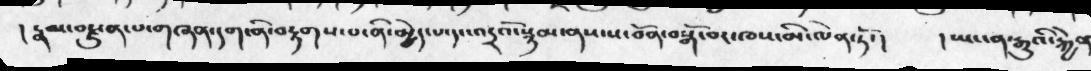།རྣམ་བརྫུན་པ་གཞན་དག་ནི་བརྟགས་པ་ནི་མྱེད་པ་དང་འདྲའོ་སྙམ་ནས་ས་བོན་བསྒོ་བར་ཁས་མི་ལེན་ཏོ་།   །ཡང་ན་རྒྱུའི་རྐྱེན
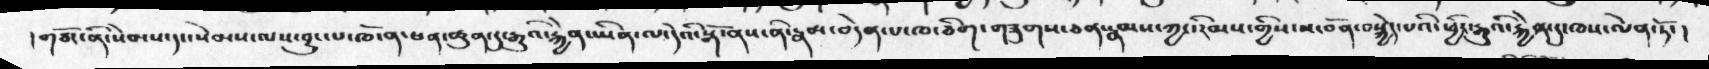།གཙོར་ནི་སེམས་དང་སེམས་ལས་བྱུང་པ་ཁོ་ན་ཕན་ཚུན་དུ་རྒྱུའི་རྐྱེན་ཡིན་ལ་དེའི་སྒོ་ནས་ནི་རྣམ་བདེན་པ་ཁ་ཅིག་གཟུགས་ཅན་རྣམས་ཀྱང་རིམས་གྱིས་ས་བོན་བསྐྱེད་པའི་ཕྱིར་རྒྱུའི་རྐྱེན་དུ་ཁས་ལེན་ཏོ་།
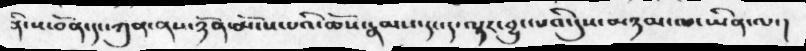ནི་ས་བོན་དང་ཀུན་ནས་ཉོན་མོངས་པའི་ཆོས་རྣམས་དང་ད་ལྟར་བྱུང་པའི་དུས་མཉམ་པ་ཡིན་ལ་།
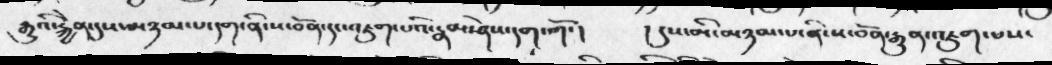རྒྱུའི་རྐྱེན་དུས་མཉམ་པ་དག་ནི་ས་བོན་དང་འཇུག་པའི་རྣམ་ཤེས་དག་གོ་།  །དུས་མི་མཉམ་པ་ནི་ས་བོན་རྒྱུན་འཇུག་པས་
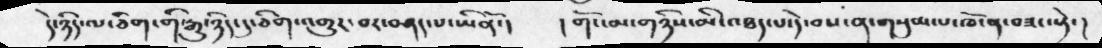དེ་ཉིད་ལ་ཅིག་གི་རྒྱུ་ཉིད་དུ་ཅིག་འགྱུར་བར་བཤད་པ་ཡིནོ་།   །གོང་མ་གཉིས་མི་འཐད་པ་དེ་བས་ན་གསུམ་པ་ཁོ་ན་བཟང་སྟེ་།
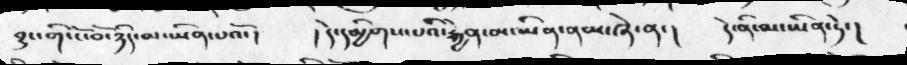བྱུང་གི་ངོ་བོ་ཉིད་མ་ཡིན་པའོ་།   །དེ་དམྱིགས་པའི་རྐྱེན་མ་ཡིན་ནམ་ཞེ་ན་།   དེ་ནི་མ་ཡིན་ཏེ་།
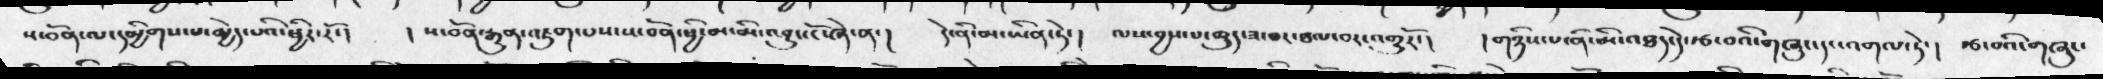ས་བོན་ལ་དམྱིགས་པ་མྱེད་པའི་ཕྱིར་རོ་།   ། ས་བོན་རྒྱུན་འཇུག་པས་ས་བོན་ཕྱི་མ་མི་འབྱུང་ངོ་ཞེ་ན་།   དེ་ནི་མ་ཡིན་ཏེ་།  ལས་བྱས་པ་ཆུད་ཟ་བར་ཐལ་བར་འགྱུརོ་།   །གཉིས་པ་ནི་མི་འཐད་དེ་རྩ་བའི་གཞུང་དང་འགལ་ཏེ་།  རྩ་བའི་གཞུང་
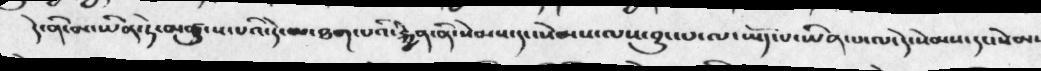དེ་ནི་མ་ཡིན་ཏེ་མཚུངས་པའི་དེ་མ་ཐག་པའི་རྐྱེན་ནི་སེམས་དང་སེམས་ལས་བྱུང་པ་ལ་ཡོད་པ་ཡིན་པ་ལ་དེ་སེམས་དང་སེམས
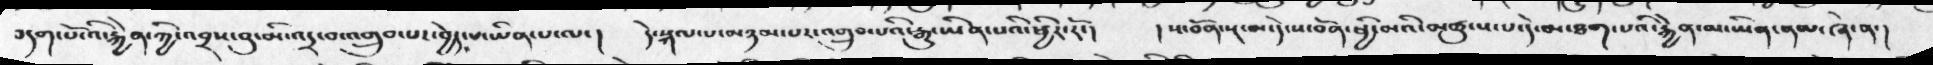བདག་པོ་འི་རྐྱེན་ཀྱི་འབྲས་བུ་མི་འདྲ་བ་འགྲུབ་པར་བྱེད་པ་ཡིན་པ་ལ་།   དེ་སྐལ་པ་མཉམ་པར་འགྲུབ་པའི་རྒྱུ་ཡིན་པའི་ཕྱིར་རོ་།  །ས་བོན་སྔ་མ་དེ་ས་བོན་ཕྱི་མའི་མཚུངས་པ་དེ་མ་ཐག་རྐྱེན་མ་ཡིན་ནམ་ཞེ་ན་།
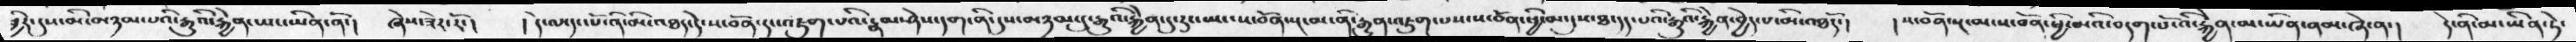ཕྱིར་དུས་མི་མཉམ་པའི་རྒྱུའི་རྐྱེན་ཡང་ཡིན་ནོ་།  ཞེས་ཟེར་རོ་།  །དེ་ལ་དང་པོ་ནི་མི་འཐད་དེ་ས་བོན་དུ་འཇུག་པའི་རྣམ་ཤེས་དག་ནི་དུས་མཉམ་དུ་རྒྱུའི་རྐྱེན་དུ་རུང་ཡང་ས་བོན་སྔ་མ་ནི་རྒྱུན་འཇུག་པས་ས་བོན་ཕྱི་མ་དུས་ཐ་དད་པའི་རྒྱུའི་རྐྱེན་བྱེད་པ་མི་འཐདོ་།   །ས་བོན་སྔ་མ་ས་བོན་ཕྱི་མའི་བདག་པོ་འི་རྐྱེན་མ་ཡིན་ནམ་ཞེ་ན་།   དེ་ནི་མ་ཡིན་ཏེ་
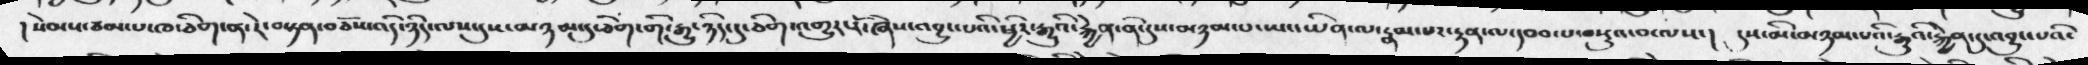།སེམས་ཙམ་པ་ཁ་ཅིག་ན་རེ་བསྟན་བཅོས་འདི་ཉིད་ལས་དུས་མཉམ་དུ་ཅིག་གི་རྒྱུ་ཉིད་དུ་ཅིག་འགྱུར་རོ་ཞེས་འབྱུང་པའི་ཕྱིར་རྒྱུའི་རྐྱེན་ནི་དུས་མཉམ་པ་ཡང་ཡིན་ལ་རྣམ་པར་རྟན་ལ་དབབ་པ་བསྡུའ་བ་ལས་།  དུས་མི་མཉམ་པའི་རྒྱུའི་རྐྱེན་དུ་འབྱུང་པའི་
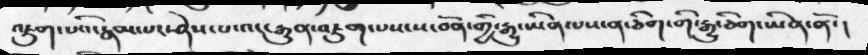འཇུག་པའི་རྣམ་པར་ཤེས་པ་འང་རྒྱུན་འཇུག་པས་ས་བོན་གྱི་རྒྱུ་ཡིན་པས་ན་ཅིག་གི་རྒྱུ་ཅིག་ཡིན་ནོ་།
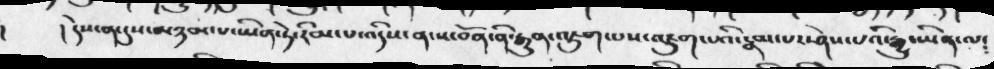།  །དེས་ན་དུས་མཉམ་པ་ཡིན་ཏེ་རིམ་པ་འདིས་ན་ས་བོན་ནི་རྒྱུན་འཇུག་པས་འཇུག་པའི་རྣམ་པར་ཤེས་པའི་རྒྱུ་ཡིན་ལ༴
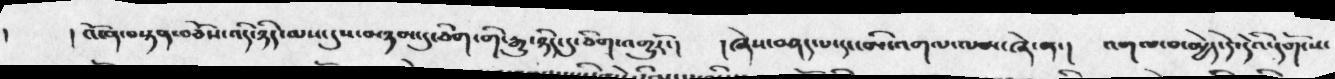།   །འོ་ན་བསྟན་བཅོས་འདི་ཉིད་ལས་དུས་མཉམ་དུ་ཅིག་གི་རྒྱུ་ཉིད་དུ་ཅིག་འགྱུརོ་།  །ཞེས་བཤད་པ་དང་མི་འགལ་ལམ་ཞེ་ན་།  འགལ་བ་མྱེད་དེ་དེའི་དགོངས་
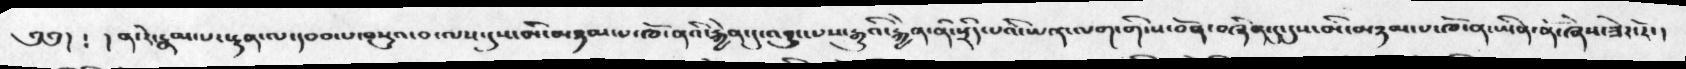༄༅། ༴  །ན་རེ་རྣམ་པ་རྟན་ལ་དབབ་པ་བསྡུའ་བ་ལས་དུས་མི་མཉམ་པ་ཁོ་ནའིརྐྱེན་དུ་འབྱུང་པས་རྒྱུའི་རྐྱེན་ནི་སྲིད་པའི་ཡན་ལག་གི་ས་བོན་བཞིན་དུ་དུས་མི་མཉམ་པ་ཁོ་ན་ཡིན་ན་ཞེས་ཟེར་རོ་།
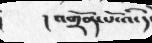།   །འགྲོན་པོ་འི་ད
